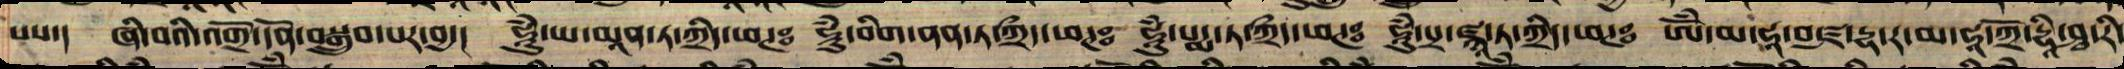པས་། ཞི་བའི་འགྲོ་དོན་བསྒྲུབ་པར་བྱ་། །ཧཱུཾ་ཡ་མཱན་ཏ་ཀྲྀད་ཕཊཿ ཧཱུཾ་བིག་ནན་ཏ་ཀྲྀད་ཕཊཿ ཧཱུཾ་པདྨ་ཏ་ཀྲྀད་ཕཊཿ ཧཱུཾ་པྲ་ཛྙཱ་ཏ་ཀྲྀད་ཕཊཿ ཨོཾ་མ་ཧཱ་བཛྲ་དྷ་ར་མ་ཧཱ་ཀྲོ་དྷཱི་ཤྭ་རི་
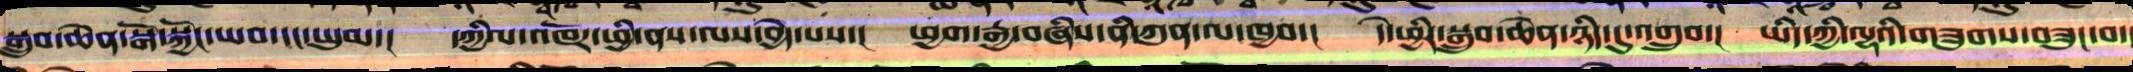སྒྲུབ་ཆེན་སྒོ་སྐྱོང་ཡབ་དང་ཡུམ་། དཀྱིལ་འཁོར་ཕྱི་ནས་ལས་བྱེད་པས་། ཕྱག་རྒྱ་བཞིས་ནི་ཀུན་ལ་ཁྱབ་། དེ་ཕྱིར་སྒྲུབ་ཆེན་ཉིད་དུ་འགྲུབ་། ཡིད་ཀྱིས་ལྷ་ཡི་གཟུགས་བཟུང་བ་
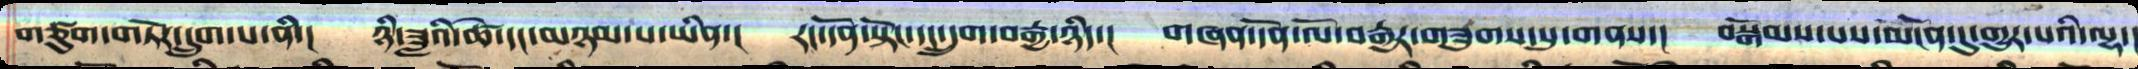གཙུག་ཏོར་དྲུག་པ་ནི་། ཉི་ཟླའི་ཚེ་དང་མཉམ་པ་ཡིན་། རང་དོན་སྟོང་དང་དྲུག་བརྒྱ་ཉིད་། གཞན་དོན་ལོ་བརྒྱར་གཟུགས་སུ་གནས་། བསྒོམས་པས་མངོན་དུ་གྱུར་པའི་ལྷ་།
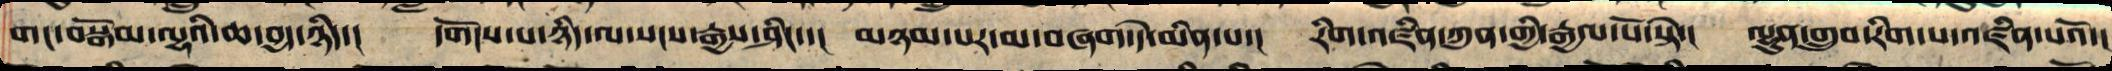གང་བསྒོམ་ལྷའི་ཆ་བྱད་ཉིད་། དགོངས་པ་ཉིད་ལ་སངས་རྒྱས་ཤིང་་། མཉམ་པར་མ་བཞག་དེ་མིན་པ་། རིག་འཛིན་ཀུན་གྱི་རྒྱལ་པོ་སྟེ་། ལྷུན་གྲུབ་རིག་པ་འཛིན་པའོ་།
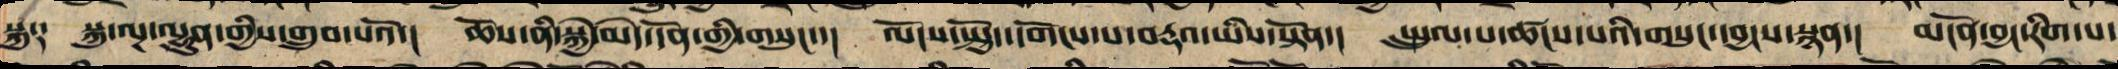སྐུ༑ སྐུ་ལྔ་ལྷུན་གྱིས་གྲུབ་པའོ་། ཆོས་ནི་སྐྱེ་མེད་དོན་གྱི་གསུང་་། ལོངས་སྤྱོད་དགོངས་པ་བརྡའ་ཡིས་སྟོན་། སྤྲུལ་པ་ཚངས་པའི་གསུང་དབྱངས་སྙན་། མངོན་བྱང་རིག་པ་
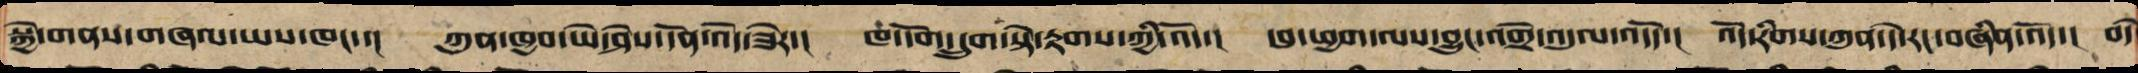སྐྱེ་གནས་གཞལ་ཡས་ཁང་་། ཀུན་ཁྱབ་ཡེ་ཤེས་དོན་འོད་ཟེར་།།ཁ་དོག་དྲུག་སྟེ་རྟགས་ཀྱི་འོད་། དབུ་ཕྱག་ལས་བྱུང་འགྲོ་འདུལ་འོད་། འོད་རིགས་ཀུན་དེ་རང་བཞིན་འོད་། བདེ
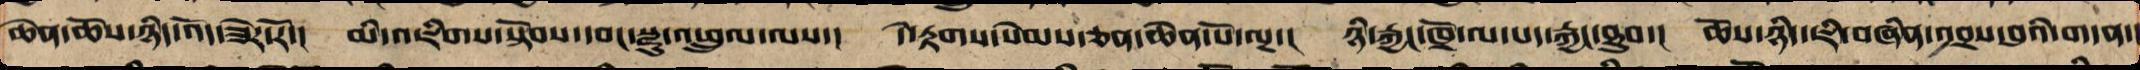ཆེན་ཆོས་ཉིད་འོད་ཟེར་རོ་། མི་འཇིགས་སྟོབས་དབང་སྫུ་འཕྲུལ་ལས་། དེ་རྟགས་སེམས་ཅན་ཆེན་པོ་ལྔ་། ཉི་རྐྱང་ཁྲོ་ལ་པད་རྐྱང་ཐུབ་། ཆོས་ཉིད་ཇི་བཞིན་འབྲས་བུའི་གདན་།
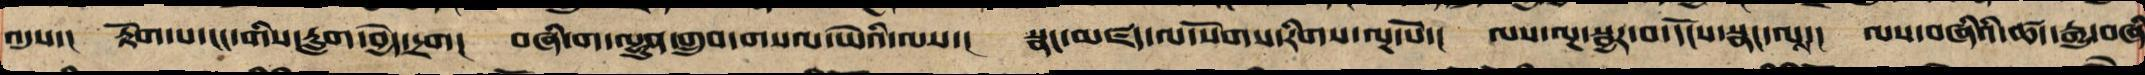འདུས་། རྟོག་པ་ངང་གིས་རླག་བྱེད་དྲག། བཞི་ག་ལྷུན་གྲུབ་གསལ་ཡེའི་ལས་། སྣང་མཛད་ལ་སོགས་རིགས་ལྔ་པོ་། ལས་ལྔ་སྦྱར་བ་དངོས་སྣང་ལས་། ལས་བཞིའི་ཚད་རྒྱུ་བཞི
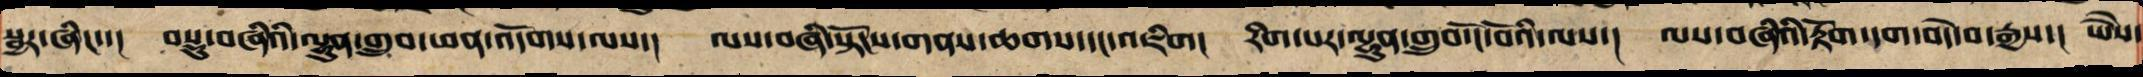སྦྱར་ཞིང་་། བསྡུ་བཞིའི་ལྷུན་གྲུབ་ཕན་འདོགས་ལས་། ལས་བཞི་སྟོངས་གནས་ཆགས་དང་འཇིག། རིག་པར་ལྷུན་གྲུབ་ངོ་བོའི་ལས་། ལས་བཞིའི་རྟོག་དག་བདེ་བ་རྒྱས་།། ཡཻས་
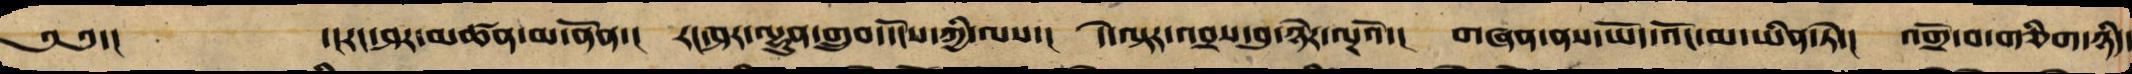༄༅་། ་།རང་ཤར་མཚན་མ་ནོན་། རང་ཤར་ལྷུན་གྲུབ་དངོས་ཀྱི་ལས་། དེ་ལྟར་འབྲས་བུ་ཉེར་ལྔའོ་། གཞན་ནས་ཡོད་འོང་མ་ཡིན་ཏེ་། འགྲོ་བ་གཅིག་ཉིད་
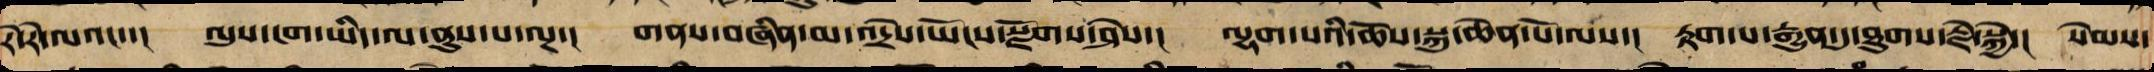རེ་རེ་ལའང་་། ལུས་ངག་ཡིད་ལ་ནུས་པ་ལྔ་། གནས་བཞིན་མ་འདྲེས་ཡོངས་སྫོགས་ཤེས་། ལྷག་པའི་ཆོས་སྐུ་ཆེན་པོ་ལས་། རྟག་པ་རྒྱུན་དུ་ཐུགས་རྗེ་སྐྱེ་། སེམས་
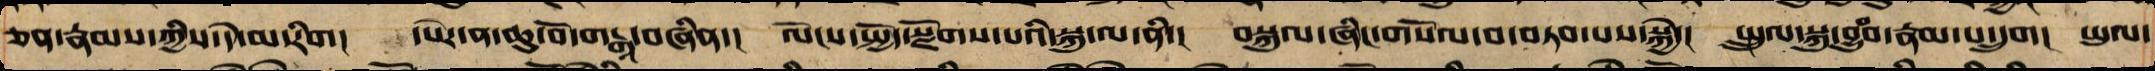ཅན་རྣམས་ཀྱིས་དེ་མ་རིག། དཔེར་ན་ཆུ་བོ་གངྒཱ་བཞིན་། ལོངས་སྤྱོད་སྫོགས་པའི་སྐུ་ལ་ནི་། བསྐུལ་ཞིང་གསོལ་བ་བཏབ་པས་སྐྱེ་། སྤྲུལ་སྐུ་བྱུཾབ་རྣམ་པ་དྲུག། ཡུལ་
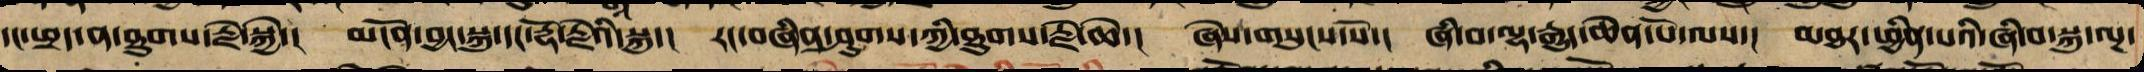དང་ཕྲད་ན་ཐུགས་རྗེ་སྐྱེ་། མངོན་བྱང་སྐུ་དང་རྡོ་རྗེའི་སྐུ་། རང་བཞིན་ཤུགས་ཀྱིས་ཐུགས་རྗེ་ཆེ་། ཞེས་གསུངས་སོ་། ཞི་བ་ལྷ་རྒྱུད་ཆེན་པོ་ལས་། མཐར་ཕྱིན་པའི་ཞི་བ་སྐུ་ལྔ་
